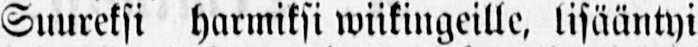Suureksi harmiksi wiikingeille, lisääntyi
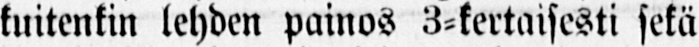kuitenkin lehden painos 3-kertaisesti sekä
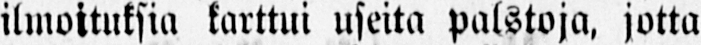ilmoituksia karttui useita palstoja, jotta
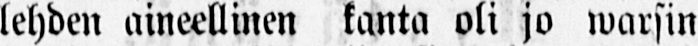lehden aineellinen kanta oli jo warsin
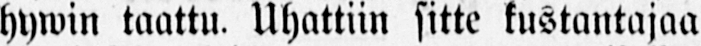hywin taattu. Uhattiin sitte kustantajaa
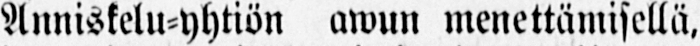Anniskelu-yhtiön awun menettämisellä,
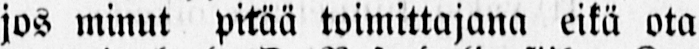jos minut pitää toimittajana eikä ota
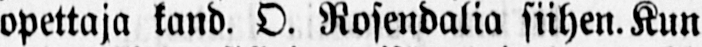opettaja kand. O. Rosendalia siihen. Kun
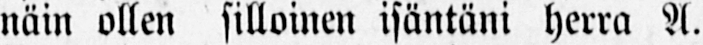näin ollen silloinen isäntäni herra A.
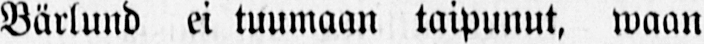Bärlund ei tuumaan taipunut, waan
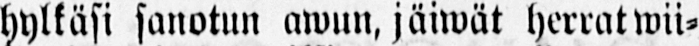hylkäsi sanotun awun, jäiwät herrat wii-
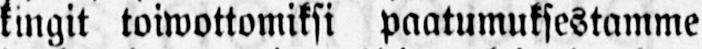kingit toiwottomiksi paatumuksestamme
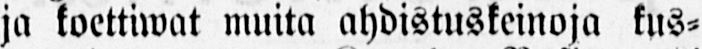ja koettiwat muita ahdistuskeinoja kus-
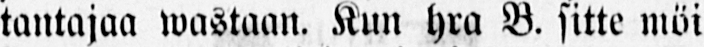tantajaa wastaan. Kun hra B. sitte möi
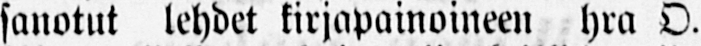sanotut lehdet kirjapainoineen hra O.
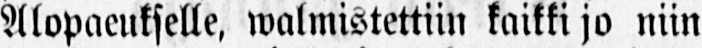Alopaeukselle, walmistettiin kaikki jo niin
